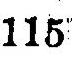115
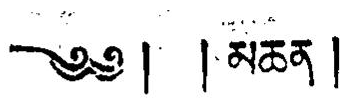༄༅། །མཆན།
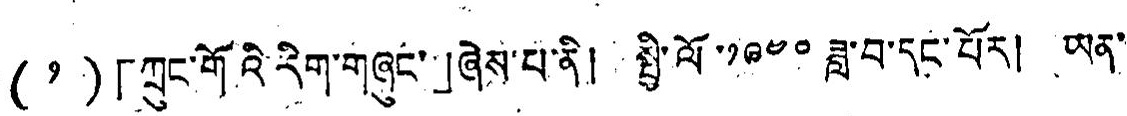(༡)「ཀྲུང་གོའི་རིག་གཞུང་」ཞེས་པ་ནི། སྤྱི་ལོ་༡༩༤༠ ཟླ་བ་དང་པོར། ཡན་
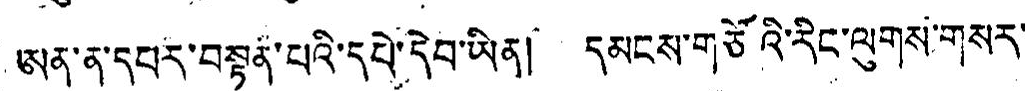ཨན་ན་དཔར་བསྟན་པའི་དཔེ་དེབ་ཡིན། དམངས་གཅོའི་རིང་ལུགས་གསར་
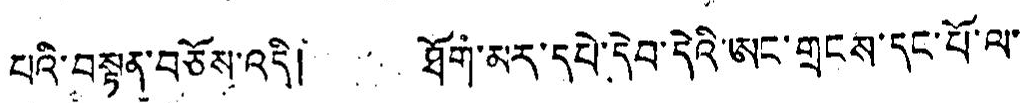པའི་བསྟན་བཅོས་འདི། ཐོག་མར་དཔེ་དེབ་དེའི་ཨང་གྲངས་དང་པོ་ལ་
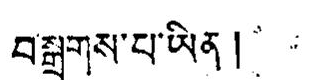བསྒྲགས་པ་ཡིན།
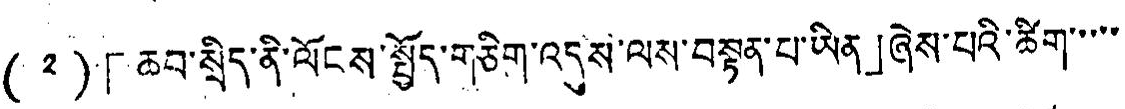(༢)「ཆབ་སྲིད་ནི་ལོངས་སྤྱོད་གཅིག་འདུས་ལས་བསྟན་པ་ཡིན」ཞེས་པའི་ཚིག་་་་་
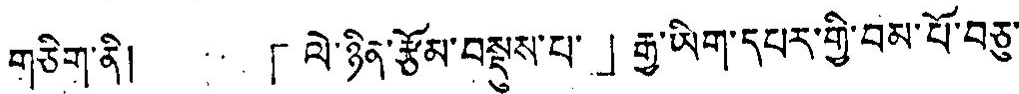གཅིག་ནི། 「ལེ་ཉིན་རྩོམ་བསྡུས་པ་」རྒྱ་ཡིག་དཔར་གྱི་བམ་པོ་བཅུ་
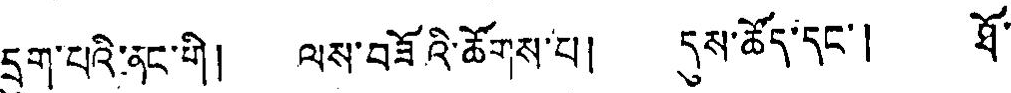དྲུག་པའི་ནང་གི། ལས་བཟོའི་ཆོགས་པ། དུས་ཚོད་དང་། ཐོ་
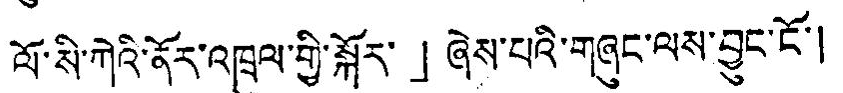ལོ་སི་ཀེའི་ནོར་འཁྲུལ་གྱི་སྐོར་」ཞེས་པའི་གཞུང་ལས་བྱུང་ངོ་།
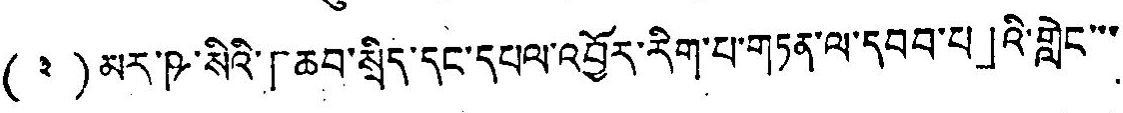（༣）མར་ཥ་སིའི་「ཆབ་སྲིད་དང་དཔལ་འབྱོར་རིག་པ་གཏན་ལ་དབབ་པ」འི་གླེང་་་
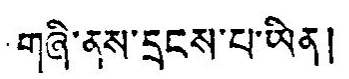གཞི་ནས་དྲངས་པ་ཡིན།
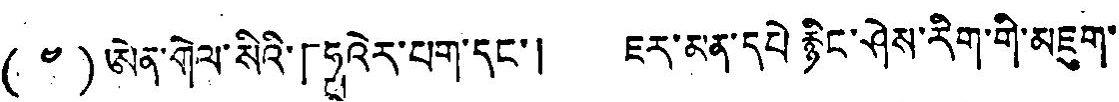(༤)ཨེན་གེལ་སིའི་「ཧྥའེར་པག་དང་། ཇར་མན་དཔེ་རྙིང་ཤེས་རིག་གི་མཇུག་
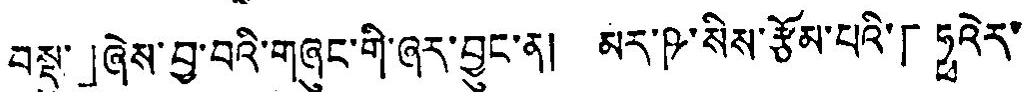བསྡུ་」ཞེས་བྱ་བའི་གཞུང་གི་ཞར་བྱུང་ན། མར་ཥ་སིས་རྩོམ་པའི་「ཧྥའེར་
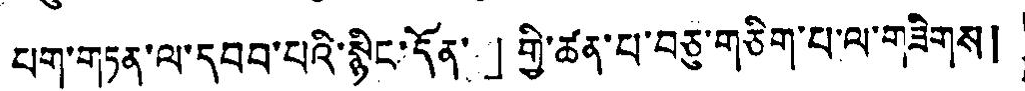པག་གཏན་ལ་དབབ་པའི་སྙིང་དོན་」གྱི་ཚན་པ་བཅུ་གཅིག་པ་ལ་གཟིགས།
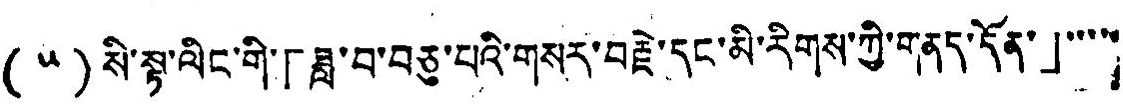(༥)སི་སྟ་ལིང་གི་「ཟླ་བ་བཅུ་པའི་གསར་བརྗེ་དང་མི་རིགས་ཀྱི་གནད་དོན་」་་་་་
